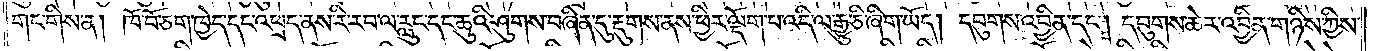གང་གིས་ན། ཁོ་བོ་ཅག་ཁྱེད་དང་འཕྲད་ནས་རི་རབ་ལ་རླུང་དང་ཆུའི་ཤུགས་བཞིན་དུ་རྡུགས་ནས་ཕྱིར་ལྡོག་པ་འདི་ལ་རྒྱུ་ཅི་ཞིག་ཡོད། དབུགས་འབྱིན་དང༌། དབུགས་ཆེར་འབྱིན་གཉིས་ཀྱིས་
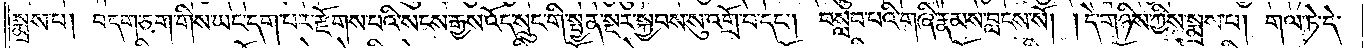སྨྲས་པ། བདག་ཅག་གིས་ཡང་དག་པར་རྫོགས་པའི་སངས་རྒྱས་འོད་སྲུང་གི་སྤྱན་སྔར་སྐྱབས་སུ་འགྲོ་བ་དང༌། བསླབ་པའི་གཞི་རྣམས་བླངས་སོ། །དེ་གཉིས་ཀྱིས་སྨྲས་པ། གལ་ཏེ་དེ་
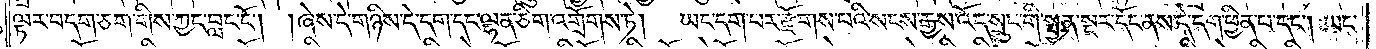ལྟར་བདག་ཅག་གིས་ཀྱང་བླང་ངོ༌། །ཞེས་དེ་གཉིས་དེ་དག་དང་ལྷན་ཅིག་འགྲོགས་ཏེ།    ཡང་དག་པར་རྫོགས་པའི་སངས་རྒྱས་འོད་སྲུང་གི་སྤྱན་སྔར་དོང་ནས་དེ་དག་ཕྱིན་པ་དང༌། ཡང་
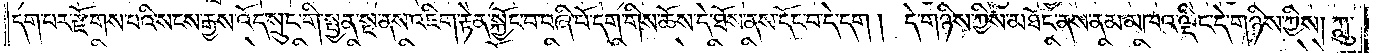དག་པར་རྫོགས་པའི་སངས་རྒྱས་འོད་སྲུང་གི་སྤྱན་སྔ་ནས་འཇིག་རྟེན་སྐྱོང་བ་བཞི་པོ་དག་གིས་ཆོས་དེ་ཐོས་ནས་དོང་བ་དེ་དག། དེ་གཉིས་ཀྱིས་མཐོང་ནས་ནམ་མཁའ་ལྡིང་དེ་གཉིས་ཀྱིས། ཀླུ་
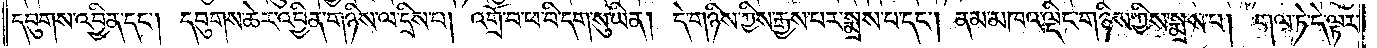དབུགས་འབྱིན་དང༌། དབུགས་ཆེར་འབྱིན་གཉིས་ལ་དྲིས་པ། འགྲོ་བ་ཕ་བི་དག་སུ་ཡིན། དེ་གཉིས་ཀྱིས་རྒྱས་པར་སྨྲས་པ་དང༌། ནམ་མཁའ་ལྡིང་གཉིས་ཀྱིས་སྨྲས་པ། གལ་ཏེ་དེ་ལྟར་
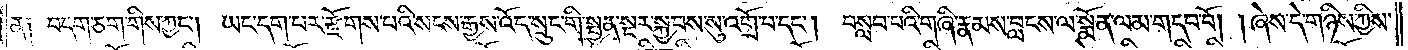ན༑ བདག་ཅག་གིས་ཀྱང༌། ཡང་དག་པར་རྫོགས་པའི་སངས་རྒྱས་འོད་སྲུང་གི་སྤྱན་སྔར་སྐྱབས་སུ་འགྲོ་བ་དང༌། བསླབ་པའི་གཞི་རྣམས་བླངས་ལ་སྨོན་ལམ་གདབ་བོ། །ཞེས་དེ་གཉིས་ཀྱིས་
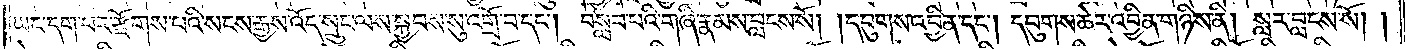ཡང་དག་པར་རྫོགས་པའི་སངས་རྒྱས་འོད་སྲུང་ལས་སྐྱབས་སུ་འགྲོ་བ་དང༌། བསླབ་པའི་གཞི་རྣམས་བླངས་སོ། །དབུགས་འབྱིན་དང༌། དབུགས་ཆེར་འབྱིན་གཉིས་ནི། སླར་བླངས་སོ། །
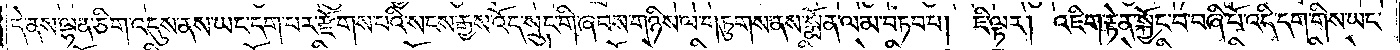དེ་ནས་ལྷན་ཅིག་འདུས་ནས་ཡང་དག་པར་རྫོགས་པའི་སངས་རྒྱས་འོད་སྲུང་གི་ཞབས་གཉིས་ལ་གཏུགས་ནས་སྨོན་ལམ་བཏབ་པ། ཇི་ལྟར། འཇིག་རྟེན་སྐྱོང་བ་བཞི་པོ་འདི་དག་གིས་ཡང་
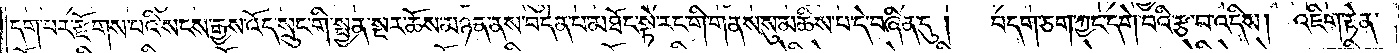དག་པར་རྫོགས་པའི་སངས་རྒྱས་འོད་སྲུང་གི་སྤྱན་སྔར་ཆོས་མཉན་ནས་བདེན་པ་མཐོང་སྟེ་རང་གི་གནས་སུ་མཆིས་པ་དེ་བཞིན་དུ།   བདག་ཅག་ཀྱང་དགེ་བའི་རྩ་བ་འདིས། འཇིག་རྟེན་
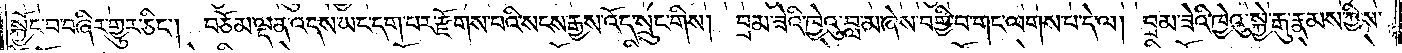སྐྱོང་བ་བཞིར་གྱུར་ཅིང༌། བཅོམ་ལྡན་འདས་ཡང་དག་པར་རྫོགས་པའི་སངས་རྒྱས་འོད་སྲུང་གིས།   བྲམ་ཟེའི་ཁྱེའུ་བླ་མ་ཞེས་བགྱི་བ་གང་ལགས་པ་དེ་ལ། བྲམ་ཟེའི་ཁྱེའུ་སྐྱེ་རྒུ་རྣམས་ཀྱིས་
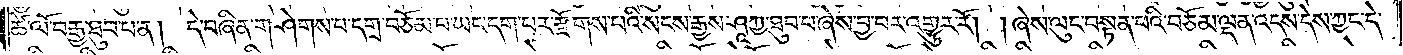ཚེ་ལོ་བརྒྱ་ཐུབ་པ་ན། དེ་བཞིན་གཤེགས་པ་དགྲ་བཅོམ་པ་ཡང་དག་པར་རྫོགས་པའི་སངས་རྒྱས་ཤཱཀྱ་ཐུབ་པ་ཞེས་བྱ་བར་འགྱུར་རོ། །ཞེས་ལུང་བསྟན་པའི་བཅོམ་ལྡན་འདས་དེས་ཀྱང་དེ་
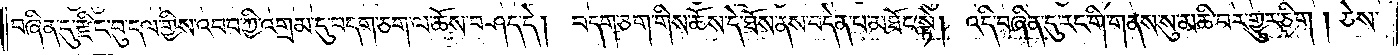བཞིན་དུ་རྫིང་བུ་དལ་གྱིས་འབབ་ཀྱི་འགྲམ་དུ་བདག་ཅག་ལ་ཆོས་བཤད་དེ། བདག་ཅག་གིས་ཆོས་དེ་ཐོས་ནས་བདེན་པ་མཐོང་སྟེ། འདི་བཞིན་དུ་རང་གི་གནས་སུ་མཆི་བར་གྱུར་ཅིག། ཅེས་
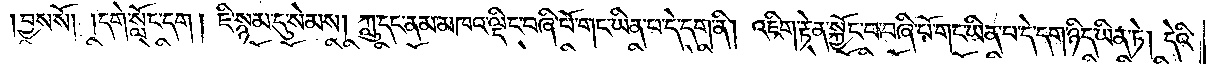།བྱས་སོ། །དགེ་སློང་དག། ཇི་སྙམ་དུ་སེམས། ཀླུ་དང་ནམ་མཁའ་ལྡིང་བཞི་པོ་གང་ཡིན་པ་དེ་དག་ནི། འཇིག་རྟེན་སྐྱོང་བ་བཞི་པོ་གང་ཡིན་པ་དེ་དག་ཉིད་ཡིན་ཏེ། དེའི་
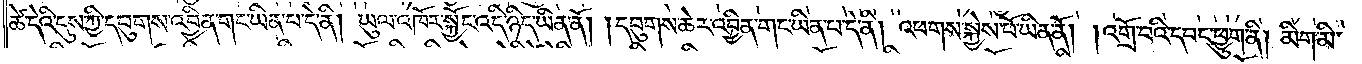ཚེ་དེའི་དུས་ཀྱི་དབུགས་འབྱིན་གང་ཡིན་པ་དེ་ནི། ཡུལ་འཁོར་སྐྱོང་འདི་ཉིད་ཡིན་ནོ། །དབུགས་ཆེར་འབྱིན་གང་ཡིན་པ་དེ་ནི། འཕགས་སྐྱེས་པོ་ཡིན་ནོ། །འགྲོ་བའི་དབང་ཕྱུག་ནི། མིག་མི་
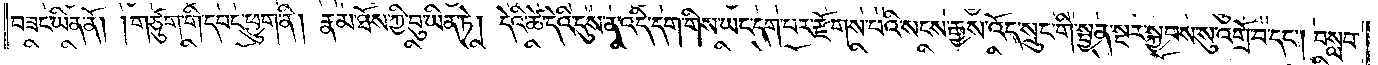བཟང་ཡིན་ནོ། །གཙུག་གི་དབང་ཕྱུག་ནི། རྣམ་ཐོས་ཀྱི་བུ་ཡིན་ཏེ། དེའི་ཚེ་དེའི་དུས་ན་འདི་དག་གིས་ཡང་དག་པར་རྫོགས་པའི་སངས་རྒྱས་འོད་སྲུང་གི་སྤྱན་སྔར་སྐྱབས་སུ་འགྲོ་བ་དང༌། བསླབ་
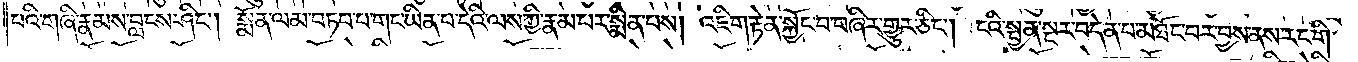པའི་གཞི་རྣམས་བླངས་ཤིང༌། སྨོན་ལམ་བཏབ་པ་གང་ཡིན་པ་དེའི་ལས་ཀྱི་རྣམ་པར་སྨིན་པས། འཇིག་རྟེན་སྐྱོང་བ་བཞིར་གྱུར་ཅིང༌། ངའི་སྤྱན་སྔར་བདེན་པ་མཐོང་བར་བྱས་ནས་རང་གི་
